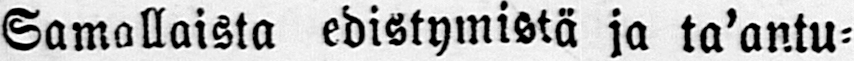Samallaista edistymistä ja ta'antu-
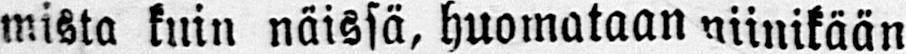mista kuin näissä, huomataan niinikään
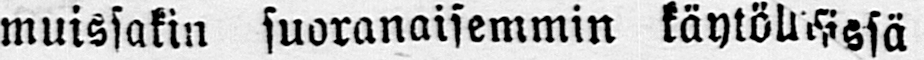muissakin suoranaisemmin käytöllsissä
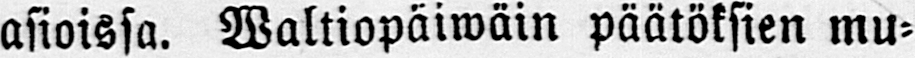asioissa. Waltiopäiwäin päätöksien mu-
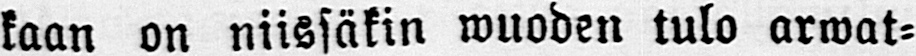kaan on niissäkin wuoden tulo arwat-
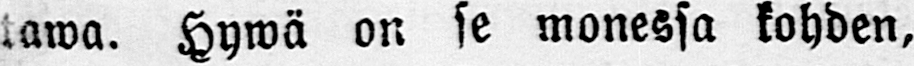tawa. Hywä on se monessa kohden,
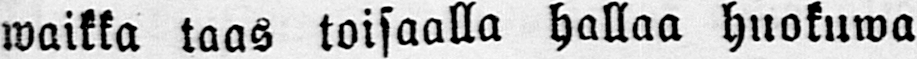waikka taas toisaalla hallaa huokuwa
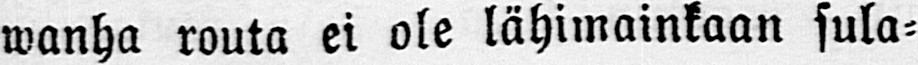wanha routa ei ole lähimainkaan sula-
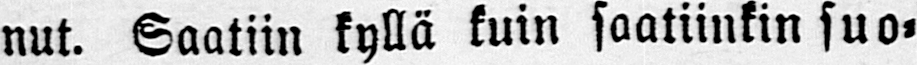nut. Saatiin kyllä kuin saatiinkin suo-
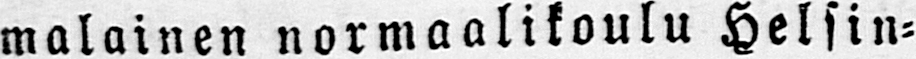malainen normaalikoulu Helsin-
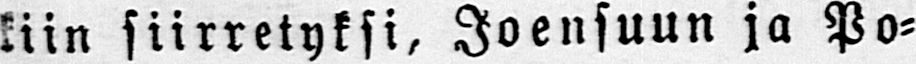kiin siirretyksi, Joensuun ja Po-
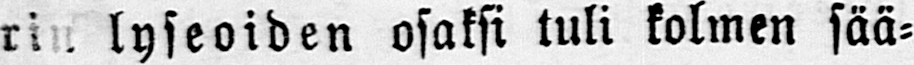rin lyseoiden osaksi tuli kolmen sää-
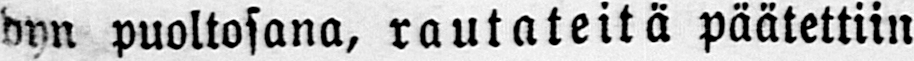dyn puoltosana, rautateitä päätettiin
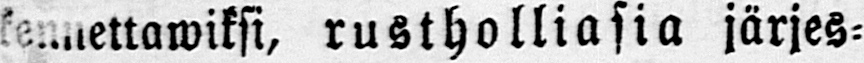rakennettawiksi, rustholliasia järjes-
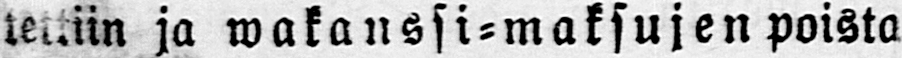tettiin ja wakanssi-maksujen poista-
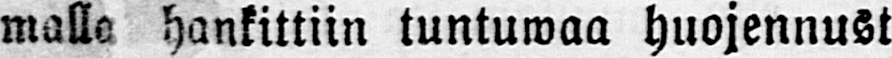malla hankittiin tuntuwaa huojennusta
